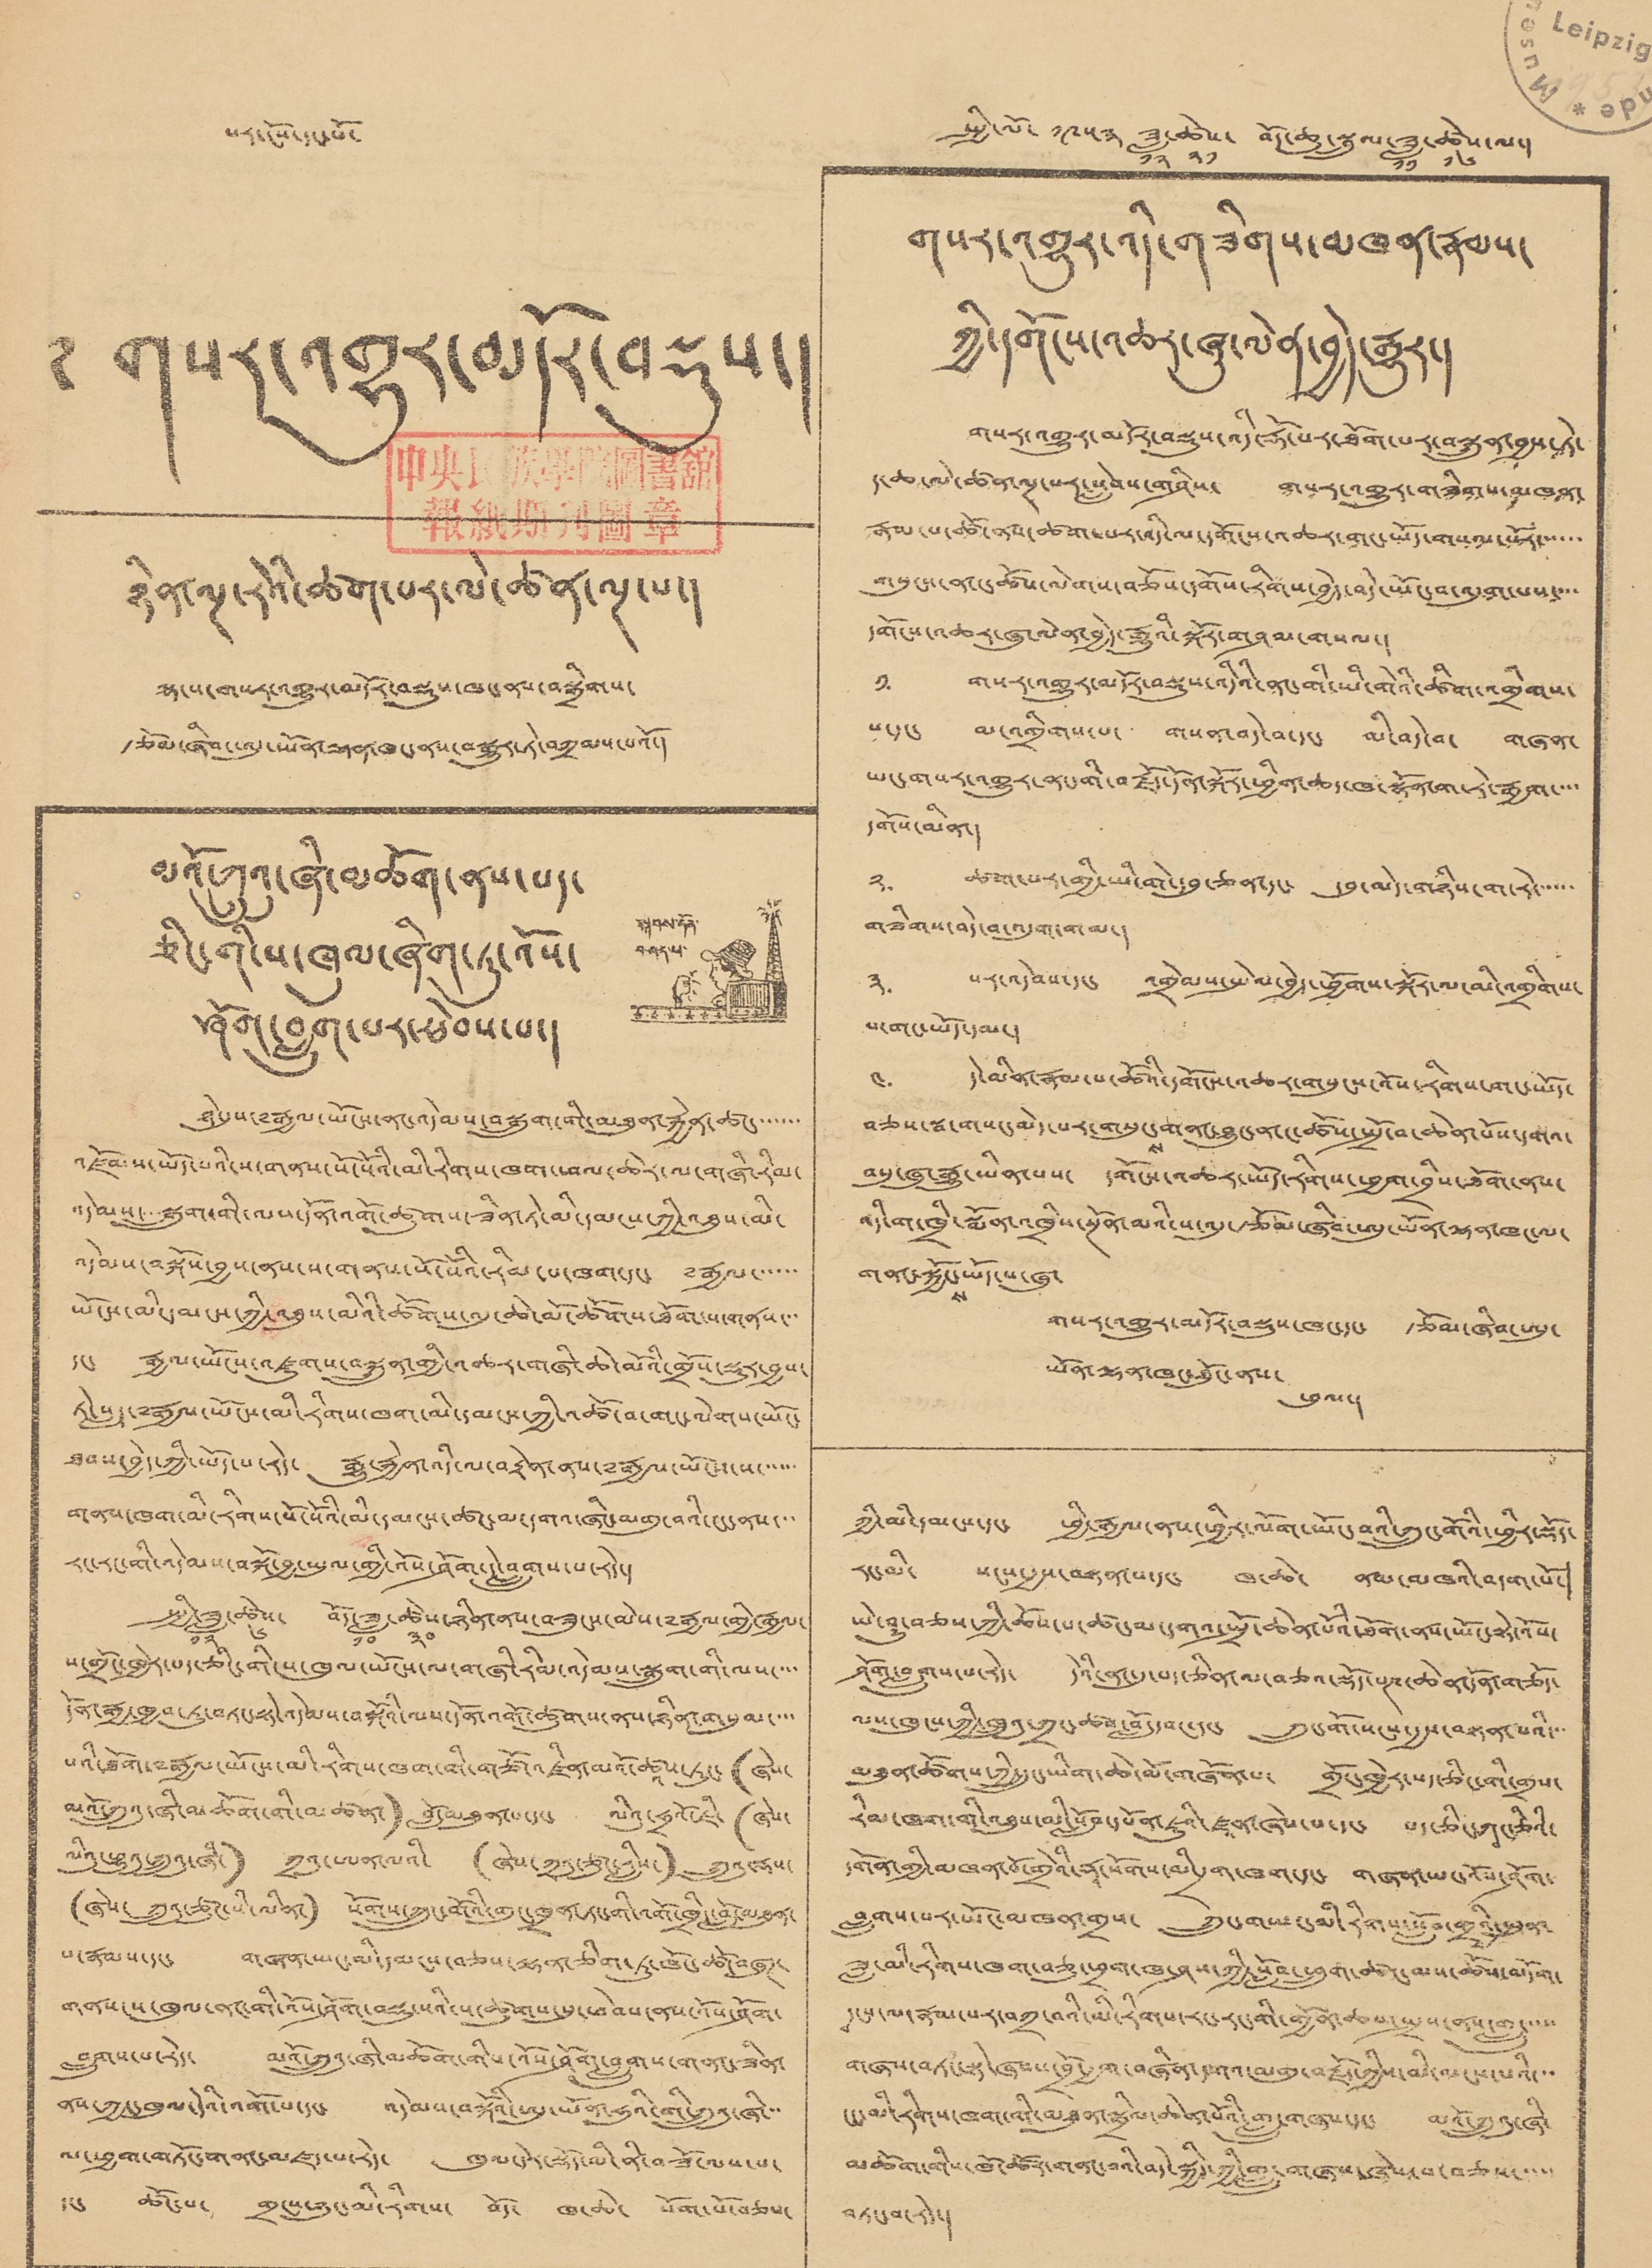པར་ངོས་དང་པོ་ སྤྱི་ལོ་ ༡༩༥༣ ཟླ་
༡༢
ཚེས་
༢༡
བོད་ཆུ་སྦྲུལ་ཟླ་
༡༡
ཚེས་
༡༦
ལ་།
གསར་འགྱུར་མདོར་བསྡུས་།
ཉིན་ལྔ་རེའི་ཚག་པར་ལེ་ཚན་ལྔ་པ་།
ལྷ་ས་གསར་འགྱུར་མདོར་བསྡུས་ཁང་ནས་བསྒྲིགས་
རྩོམ་ཞིབ་ཨུ་ཡོན་ལྷན་ཁང་ནས་བསྒྱུར་ཏེ་བཀྲམས་པའོ་།
མའོ་ཀྲུའུ་ཞི་མཆོག་ནས་པད་
ཅིང་གི་ས་ཁུལ་ཞིག་ཏུ་འོས་
ཤོག་བླུག་པར་ཕེབས་པ་།
སྐབས་དོན་
བཤད་པ་
ཉེ་དུས་༸རྒྱལ་ཡོངས་ནང་འདེམས་བསྒྲུག་གི་མཐུན་རྐྱེན་ཚང་་་་་་
འཛོམས་ཡོད་པའི་ས་གནས་སོ་སོའི་མི་རིགས་ཁག་ཕལལ་ཆེར་ལ་གཞི་རིམ་
འདེམས་་་་སྒྲུག་གི་ལས་དོན་འགོ་ཚུགས་ཟིན་ཏེ་མི་དམངས་ཀྱི་འཐུས་མི་
འདེམས་བསྐོས་བྱས་ནས་ས་གནས་སོ་སོའི་རིམ་པ་ཁག་དང་ ༸རྒྱལ་་་་་་
ཡོངས་མི་དམངས་ཀྱི་འཐུས་མིའི་ཚོགས་འདུ་ཆེ་མོ་ཚོགས་ཐོག་ས་གནས་་་
དང་ རྒྱལ་ཡོངས་འཛུགས་བསྐྲུན་གྱི་འཆར་གཞི་ཆེ་མོའི་གྲོས་སྡུར་བྱས་
ཏེ་སླད་༸རྒྱལ་ཡོངས་མི་རིགས་ཁག་མི་དམངས་ཀྱི་འཚོ་བ་གང་ལེགས་ཡོང་
ཐབས་བྱེད་ཀྱི་ཡོད་པ་རེད་ རྒྱུ་རྐྱེན་འདི་ལ་བརྟེན་ནས་༸རྒྱལ་ཡོངས་ས་་་་་་
གནས་ཁག་མི་རིགས་སོ་སོའི་མི་དམངས་ཚང་མ་དགའ་ཞིང་མགུ་བའི་ངང་ནས་་་
རང་རང་གི་འདེམས་བསྐོ་བྱ་ཡུལ་གྱི་འོས་ཤོག་དེ་བླུགས་པ་རེད་།
སྤྱི་ཟླ་
༡༢
ཚེས་
༦
བོད་ཟླ་
༡༠
ཚེས་
༣༠
ཉིན་ནས་བཟུངས་མེས་༸རྒྱལ་གྱི་རྒྱལ་
ས་གྲོང་ཁྱེར་པད་ཅིང་གི་ས་ཁུལ་ཡོངས་ལ་གཞི་རིམ་འདེམས་སྒྲུག་གི་ལས་་་་
དོན་རྒྱ་ཁྱབ་ཏུ་བཏང་སྟེ་འདེམས་བསྐོའི་ལས་དོན་འགོ་ཚུགས་ནས་ཉིན་གསུམ་་་་
པའི་ཐོག་༸རྒྱལ་ཡོངས་མི་རིགས་ཁག་གི་གཙོ་འཛིན་མའོ་ཚཱས་ཏུང་(ཞེས་
མའོ་ཀྲུའུ་ཞི་མཆོག་གི་མཚན་) བློ་མཐུན་པ་དང་ ལིའུ་ཧྲའོ་ཇི་(ཞེས་
ལིའུ་ཕྱུའུ་ཀྲུའུ་ཞི་) ཀྲའུ་ཨན་ལའི་ (ཞེས་ཀྲའུ་ཙུང་རླིས་) ཀྲུའུ་རྡས་
(ཞེས་ ཀྲུའུ་ཙུང་སི་ལིན་) སོགས་ཀྲུང་གོའི་གུང་ཁྲན་ཏང་གི་འགོ་ཁྲིད་བློ་མཐུན་
པ་རྣམས་དང་ གཞན་ཡང་མི་དམངས་བཅས་ལྷན་ཅིག་ཏུ་ཁོང་ཚོ་བཞུཊ་
གནས་ས་ཁུལ་ནང་གི་འོས་ཤོག་བསྡུ་སའི་ས་ཚུགས་སུ་ཕེབས་ནས་འོས་ཤོག་
བླུགས་པ་རེད་ མའོ་ཀྲུའུ་ཞི་མཆོག་གིས་འོས་ཤོག་བླུགས་གནང་ཟིན་
ནས་ཀྱང་ཁུལ་དེའི་འགོ་པ་དང་ འདེམས་བསྐོའི་ཨུ་ཡོན་ཧུའི་གི་ཀྲུའུ་ཞི་་་
ལ་ཕྱག་གཏོང་གནང་མཛད་པ་རེད་ ཁུལ་དེར་སྡོད་མི་ནི་བཟོ་ལས་པ་
དང་ ཚོང་པ་ གྲངས་ཉུང་མི་རིགས་ བོད་ ཁ་ཆེ་ སོག་པོ་བཅས་
ཀྱི་མི་དམངས་དང་ ཕྱི་རྒྱལ་ནས་ཕྱིར་ལོག་ཡོང་བའི་ཀྲུང་གོའི་ཕྱིར་སྡོད་
རང་མི་ སངས་རྒྱས་བསཏན་པ་དང་ ཁ་ཆེ་ ནམ་མཁའི་བདག་པོ་།
ཡེ་ཤུ་བཅས་ཀྱི་ཆོས་པ་ཚང་མ་དགའ་སྤྲོ་ཆེན་པོའི་ཐོག་ནས་ཡོང་སྟེ་འོས་
ཤོག་བླུགས་པ་རེད་ དེའི་ནང་དུ་པད་ཅིན་ལ་བཅའ་སྡོད་པཎ་ཆེན་དོན་གཅོད་
ལས་ཁུངས་ཀྱི་ཁྲུའུ་ཀྲང་ཚབ་བློ་དབང་དང་ ཀྲུང་གོ་སངས་རྒྱས་བསྟན་པའི་་་
མཐུན་ཚོགས་ཀྱི་དྲུང་ཡིག་ཆེ་མོ་གཞོན་པ་ གྲོང་ཁྱེར་པད་ཅིང་གི་གྲས་
རིམ་ཁག་གི་འཐུས་མི་སློབ་དཔོན་ཇུའི་ཛཱན་ཞེས་པ་དང་ པད་ཅིང་ཀཱང་ཅིའི་
དགོན་གྱི་མཁན་པོ་གྲེའི་རྡཱ་སོགས་མི་དྲག་ཁག་དང་ གཞན་ཡང་འོས་ཤོག་
བླུགས་པར་ཡོང་མཁན་གྲས་ ཀྲུང་གཡང་མི་རིགས་སློབ་གྲྭའི་སྤུན་
ཟླ་མི་རིགས་ཁག་བཅུ་ཕྲག་ཁ་ཤས་ཀྱི་སློབ་ཕྲུག་ཚང་མས་ཚོས་མདོག་
དྭངས་ལ་རྣམ་པར་བཀྲ་བའི་མི་རིགས་རང་རང་གི་གྱོན་ཆས་སྤྲས་ནས་གླུ་་་་་
གཞས་བཏང་སྟེ་ཞབས་བྲོ་རྒྱག་བཞིན་དགའ་མགུ་བརྗོད་ཀྱིས་མི་མངས་པའི་་་
ངང་མི་རིགས་ཁག་གི་མཐུན་སྒྲིལ་ཆེན་པོའི་གླུ་གཞས་དང་ མའོ་ཀྲུའུ་ཞི་
མཆོག་གིས་ཁོ་ཚོར་གནང་བའི་བདེ་སྐྱིད་ཀྱི་གླུ་གཞས་ཞེས་པ་བཅས་་་་་
བཏང་བ་རེད་།
གསར་འགྱུར་འདི་གཟིགས་མཁན་རྣམས་
ཀྱི་དགོངས་འཆར་ཞུ་ལེན་བྱེད་རྒྱུར་།
གསར་འགྱུར་མདོར་བསྡུས་འདི་རྡོ་པར་ཐོག་པར་བསྐྲུན་བྱས་ཏེ་
ད་ཆ་ལེ་ཚན་ལྔ་པར་སླེབས་གཤིས་ གསར་འགྱུར་གཟིགས་མཁན་
རྣམ་པ་ཚོ་ནས་ཚགས་པར་འདི་ལ་དགོངས་འཆར་གང་ཡོད་གསལ་པོར་་་་་་
གསུངས་ན་ང་ཚོས་ལེགས་བཅོས་དགོས་རིགས་བྱེད་བདེ་ཡོང་བ་འདུག་པས་་་་
དགོངས་འཆར་ཞུ་ལེན་བྱེད་རྒྱུའི་སྐོར་གཤམ་གསལ་།
༡་ གསར་འགྱུར་མདོར་བསྡུས་འདིའི་ནང་གི་ཡི་གེའི་ཚིག་འགྲིགས་
པ་དང་ མ་འགྲིགས་པ་ གསན་བདེ་བ་དང་ མི་བདེ་བ་ གཞན་
ཡང་གསར་འགྱུར་ནང་གི་བརྗོད་དོན་སྐོར་ཕྱིན་ཆད་ཁ་སྣོན་ག་རེ་རྒྱག་་་་
དགོས་མིན་།
༢་ ཚག་པར་གྱི་ཡི་གེ་དབུ་ཅན་དང་ དབུ་མེད་གཉིས་ག་རེ་་་་་་
གཟིགས་བདེ་བ་འདུག་གམ་།
༣་ སར་འདེབས་དང་ འགྲེམས་སྤེལ་བྱེད་ཕྱོགས་སྐོར་ལ་མི་འགྲིགས་
པ་གང་ཡོད་དམ་།
༤་ དེ་མིན་རྣམ་པ་ཚོའི་དགོངས་འཆར་གསུངས་འོས་རིགས་གང་ཡོད་
བཅས་སྦ་གསང་མེད་པར་གསུང་
ས
གནང་བྱུང་ན་ང་ཚོས་སྤྲོ་བ་ཆེན་པོས་དགའ་
བསུ་ཞུ་རྒྱུ་ཡིན་པས་ དགོངས་འཆར་ཡོད་རིགས་ཕྱག་བྲིས་ཐོག་ནས་
འདི་ག་ཁྲི་སྨོན་འཁྲིས་སྔོན་མའི་ས་འདུ་རྩོམ་ཞིབ་ཨུ་ཡོན་ལྷན་ཁང་ལ་
གནང་སྐྱོང་
ས
ཡོད་པ་ཞུ་
གསར་འགྱུར་མདོར་བསྡུས་ཁང་དང་ རྩོམ་ཞིབ་ཨུ་
ཡོན་ལྷན་ཁང་ཐོུང་ནས་
ཕུལ་།
